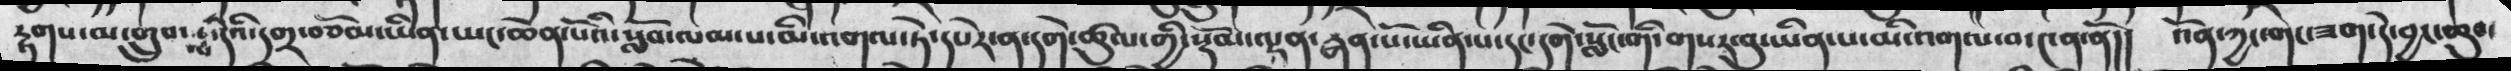རྟགས་མ་གྲུབ་ལ་དེའི་དགྲ་བཅོམ་ཡིན་ཡང་ཆེན་པོའི་སློབ་ལམ་པ་མི་འགལ་ཏེ་དཔེར་ན་དགེ་ཚུལ་གྱི་སྡོམ་ལྡན་རྒན་པོ་ཡིན་པ་དང་དགེ་སློང་གི་གསར་བུ་ཡིན་པ་མི་འགལ་བ་༤ན་ནོ།།  འོན་ཀྱང་གང་ཟག་དེ་བྱང་ཆུབ་
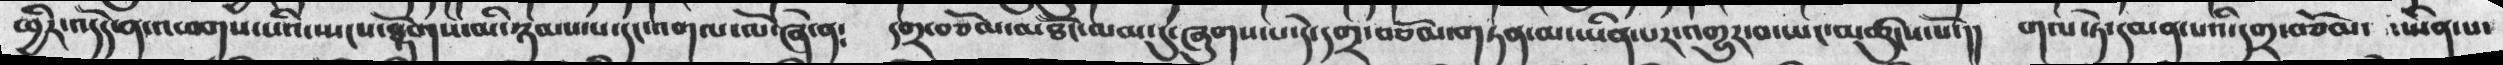ཕྱིར་འདོད་ན་འཕགས་པའི་སྤངས་རྟོགས་མི་ཉམས་པ་དང་འགལ་ལོ་ཞེ་ན༴  དགྲ་བཅོམ་མཐོང་ལམ་དུ་ཞུགས་པ་དེ་དགྲ་བཅོམ་གཏན་མ་ཡིན་པར་འགྱུར་བ་ཡང་མཚུངས་སོ་།།  གལ་ཏེ་དམན་པའི་དགྲ་བཅོམ་ ་ཡིན་པ་
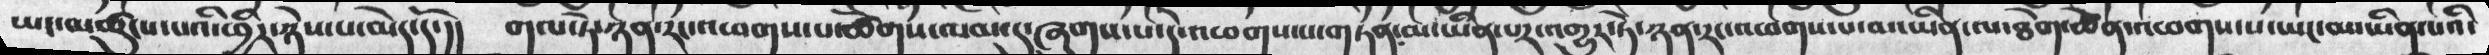ཡང་མཚུངས་པའི་ཕྱིར་ཉེས་པ་མེད་དོ་།།  གལ་ཏེ་ཉན་རང་འཕགས་པ་ཚོགས་ལམ་དུ་ཞུགས་པ་དེ་འཕགས་པ་གཏན་མ་ཡིན་པར་འགྱུར་ཏེ་ཉན་རང་འཕགས་པ་མ་ཡིན་ལ་ཐེག་ཆེན་འཕགས་པ་ཡང་མ་ཡིན་པའི་
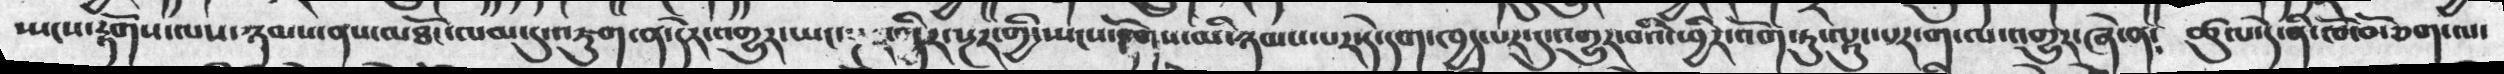སྤངས་རྟོགས་ལས་ཉམས་ནས་མཐོང་ལམ་དུ་འཇུག་ན་དེར་འགྱུར་ཡང་སྔར་འདིར་སྔར་གྱི་སྤངས་རྟོགས་མི་ཉམས་པར་དེ་དག་ཁྱད་པར་དུ་འགྱུར་བའི་ཕྱིར་འོག་ཏུ་ལྟུང་པར་ག་ལ་འགྱུར་ཞེ་ན༴  ཚུལ་དེ་ནི་ཁོ་བོ་ཅག་ལ་
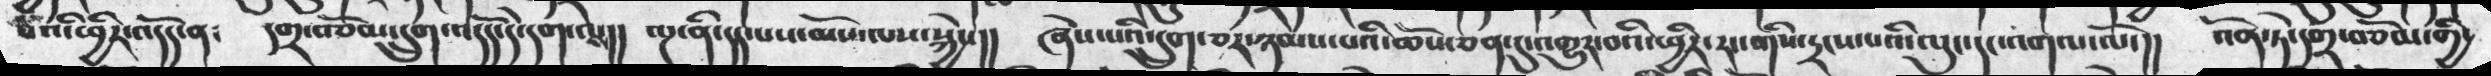པའི་ཕྱིར་འདོད་ན༴  དགྲ་བཅོམ་དྲུག་འདོད་དེ་དག་ལ།། ལྔ་ནི་དད་པས་མོས་ལས་སྐྱེས།།  ཞེས་པའི་དྲུག་ཅར་ཉམས་པའི་ཆོས་ཅན་དུ་གྱུར་བའི་ཕྱིར་རང་གིས་དྲངས་པའི་ལུང་དང་འགལ་ལོ་།།  འོན་ཏེ་དགྲ་བཅོམ་གྱི་
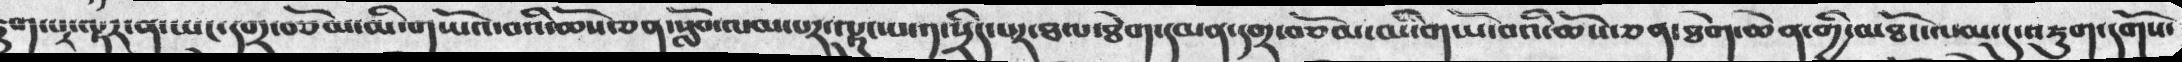ག་པ་ལྟར་ན་ཡང་དགྲ་བཅོམ་མི་གཡོའ་བའི་ཆོས་ཅན་སློབ་ལམ་པར་ལྟུང་པ་༡་སྲིད་པར་ཐལ་ཐེག་དམན་དགྲ་བཅོམ་མི་གཡོ་བའི་ཆོས་ཅན་ཐེག་ཆེན་གྱི་མཐོང་ལམ་དུ་འཇུག་དགོས་
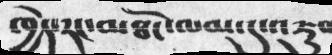ཁྱེད་རང་མཐོང་ལམ་དུ་འཇུ
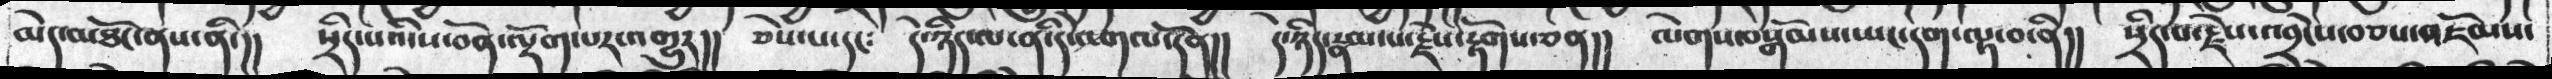མེད་མཐོང་ནས་ནི་།། སྲིད་པའི་ས་བོན་ལྡོག་པར་འགྱུར།།  ཅེས་པ་དང༴  དེ་ཉིད་ལ་ནི་དེ་འགལ་དོན།།  དེ་ཉིད་རྣམ་པ་རྗེས་རྟོགས་ཅན།།  ལེགས་བསྒོམས་ཡང་དག་ལྟ་བ་ནི།།  སྲིད་པ་རྗེས་འབྲེངས་བཅས་འཇོམས་
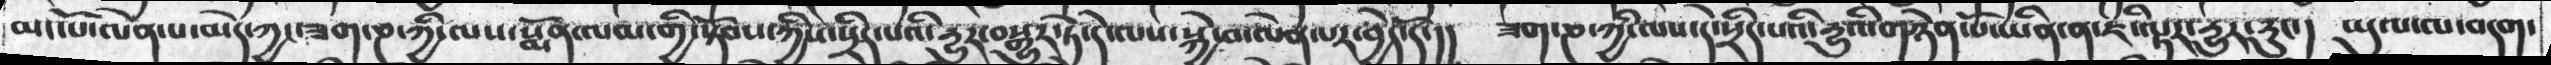མང་པོ་ལེན་པ་མེད་ཀྱང་ཟག་ཎ་ཀྱི་ལས་སྨོན་ལམ་གྱི་སྟོབས་ཀྱིས་སྲིད་པའི་རྱུར་བསྒྱུར་ཏེ་དེ་ལས་སྐྱེ་བ་ལེན་པར་བྱེད་དོ་།། ཟག་ཎ་ཀྱི་ལས་དེ་སྲིད་པའི་རྱུའི་གཉེན་པོ་ཡིན་ན་ཇི་ལྟར་རྱུར་རུང་། ཡུལ་ལ་བདག་
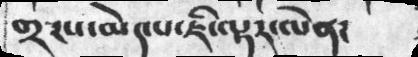གྲངས་མེད་པ་ཇི་ལྟར་ལེན་
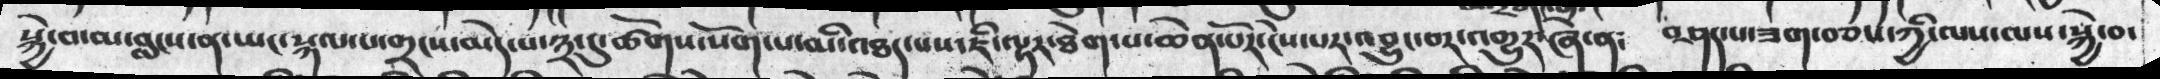སྐྱེ་བ་མ་བླངས་ན་ཡང་སྐལ་པ་གྲངས་མེད་པ་༣་དུ་ཚོགས་སོགས་པ་མི་འཐད་པས་ཇི་ལྟར་ཐེག་པ་ཆེན་པོར་ངེས་པར་འབྱུང་བར་འགྱུར་ཞེ་ན༴  བཤད་པ་ཟག་བཅས་ཀྱི་ལས་ལས་སྐྱེ་བ་
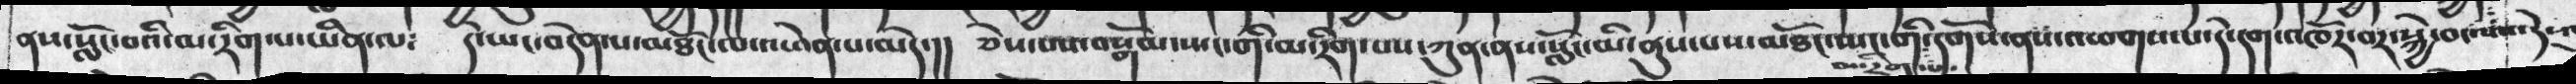ནས་སློང་བའི་མ་རིག་པ་ཡིན་ལ༴   དེ་ཡང་བདེན་པ་མཐོང་ལ་འཕེན་པ་མེད་།།  ཅེས་པས་བསྒོམ་སྤང་ག་མ་རིག་པས་ཀུན་ནས་སློང་མི་ནུས་པས་མཐོང་སྤང་གི་མ་རིག་པ་དགོས་ནས་འཕགས་པ་དེ་དག་འཁོར་བར་སྐྱེ་བ་ལས་དེས་
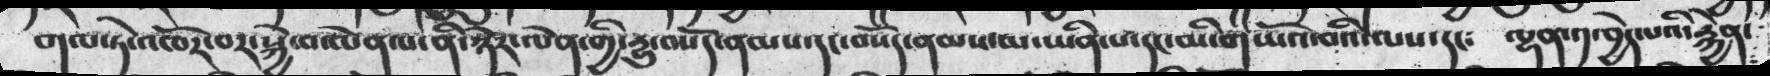གལ་ཏེ་འཁོར་བར་སྐྱེ་བ་ལེན་པ་ནི་ཉེར་ལེན་གྱི་རྱུ་བསོད་ནམས་དང་བསོད་ནམས་མ་ཡིན་པ་དང་མི་གཡོའ་བའི་ལས་དང༴  ལྷན་༡་བྱེད་པའི་རྐྱེན་
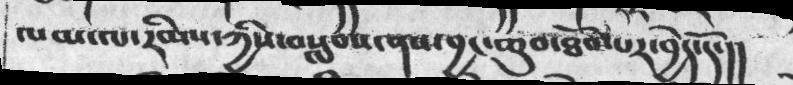ལམ་ལ་རིམས་ཀྱིས་བསླབས་ནས་བྱང་ཆུབ་ཐོབ་པར་བྱེད་དོ་།།
